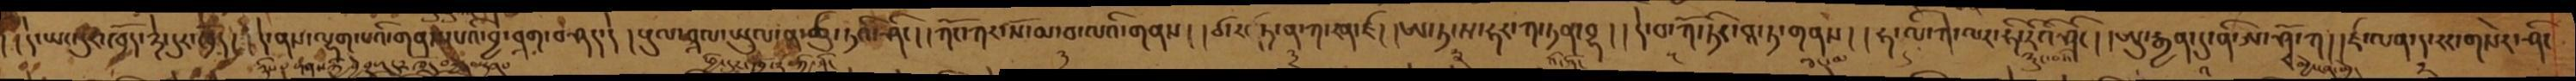།དེ་ཡང་དུར་ཁྲོད་ཉེ་དུར་ཁྲོད། །དེ་ནས་ལྷག་པའི་གནས་པའི་བྱ་ནག་བཤད་དེ། །རྡུལ་བྲལ་ཡུལ་ན་ཚུ་ཏའི་ཤིང། །ཀོང་ཀར་སོ་མ་བ་ལའི་གནས། །ཙ་ར་ཏུ་ན་ཀ་རན་ཛ། །ཨ་ཏ་ས་ཧར་ཀ་ཏ་བྷ། །དེ་བ་ཀོ་ཏིར་བཱ་ཏ་གནས། །ཧ་ལི་ཀེ་ལར་ཧི་རིའི་ཤིང། །ཨུ་རྒྱན་དུ་ནི་ཨ་ཤྭོ་ཀ། །ཛ་ལན་ད་རར་གསེར་ཤིང་
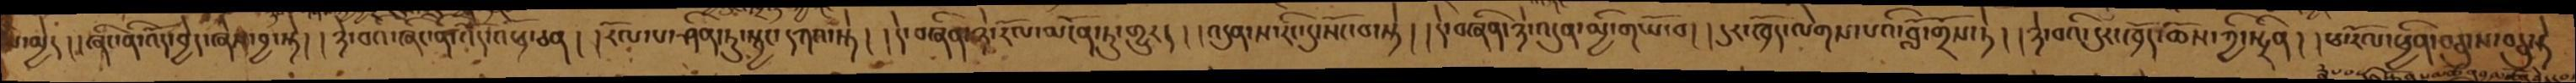པ་མྱེད། །ཞིང་ནི་འོད་བྱེད་ཞེས་བྱ་སྟེ། །ཉེ་བའི་ཞིང་ནི་འོད་འཕྲོ་ཅན། །རོལ་པ་ཤིན་ཏུ་སྦྱང་དཀའ་སྟེ། །དེ་བཞིན་ཉེ་རོལ་མངོན་ཏུ་གྱུར། །འདུན་ས་རིང་དུ་སོང་བ་སྟེ། །དེ་བཞིན་ཉེ་འདུན་མྱི་གཡོ་བ། །དུར་ཁྲོད་ལེགས་པའི་བློ་གྲོས་ཏེ། །ཉེ་བའི་དུར་ཁྲོད་ཆོས་ཀྱི་སྤྲིན། །ཕ་རོལ་ཕྱིན་བཅུ་ས་བཅུ་ཏེ
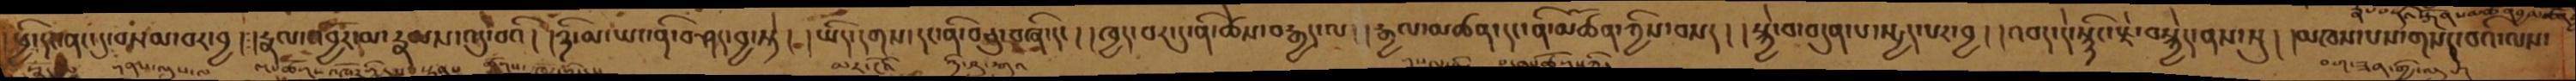ཕྱི་དང་ནང་དུ་བསམ་བར་བྱ། །རྣལ་འབྱོར་མ་རྣམས་འདུ་བའི། །ཉི་མ་ཡང་ནི་བཤད་བྱ་སྟེ། །ཡིད་དགས་དང་ནི་བཅུ་བཞི་དང། །ཁྱད་པར་དུ་ནི་ཚེས་བརྒྱད་ལ། །རྒྱལ་མཚན་དང་ནི་མཚོན་ཀྱིས་བསད། །སྐྱེ་བ་བདུན་པ་སྤྱད་པར་བྱ། །འབད་དེ་སྙིང་རྗེ་བསྐྱེད་ནས་སུ། །མཁས་པས་གསང་བའི་ལས་
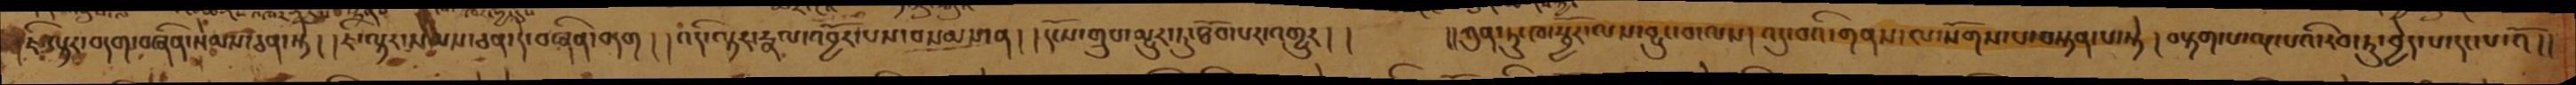།ཇི་ལྟར་བདག་བཞིན་སེམས་ཅན་སྟེ། །ཇི་ལྟར་སེམས་ཅན་དེ་བཞིན་བདག། །འདི་ལྟར་རྣལ་འབྱོར་པས་བསམས་ན། །དངོས་གྲུབ་མྱུར་ཏུ་ཐོབ་པར་འགྱུར།།   །།ཀུན་ཏུ་ཁ་སྦྱོར་ལས་བྱུང་བ་ལས། འདུ་བའི་གནས་ལ་སོགས་པ་བསྟན་པ་སྟེ། བརྟག་པ་ལྔ་པའི་རབ་ཏུ་བྱེད་པ་དང་པ་འོ།།
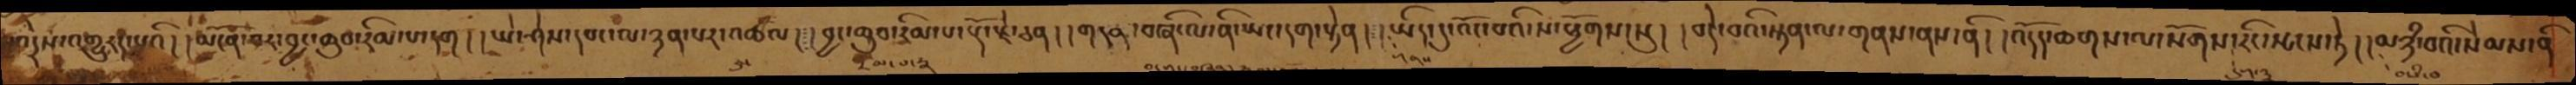་འདྲེས་འགྱུརད་པའི། །མངོན་པར་བྱང་ཆུབ་རིམ་པ་དག། །ཡེ་ཤེས་དབང་ལ་ཉན་པར་འཚལ། །བྱང་ཆུབ་རིམ་པ་རྡོ་རྗེ་ཅན། །གདན་བཞི་ལ་ནི་ཡང་དག་སྟེན། །ཡིད་དུ་འོང་བའི་ས་ཕྱོགས་སུ། །བདེ་བའི་སྟན་ལ་གནས་ནས་ནི། །འདོད་ཆགས་ལ་སོགས་རིང་སྤངས་ཏེ། །མཉཾ་བའི་སེམས་ནི
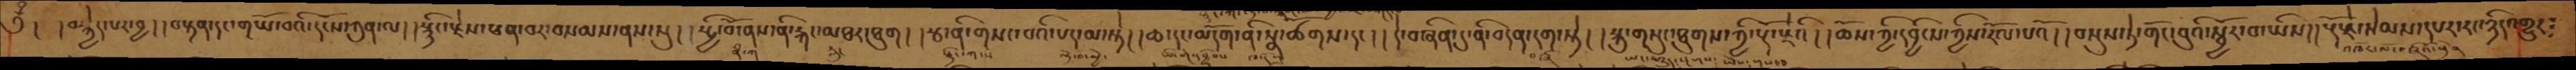༄ྃ།  །བསྐྱེད་པར་བྱ། །བསྟན་དང་གཡོ་བའི་དངོས་ཀུན་ལ། །སྙིང་རྗེས་ཕན་བར་བསམས་ནས་སུ། །སྤྱི་བོ་ནས་ནི་རྐང་མཐར་ཐུག། །རྩ་ནི་གསང་བའི་པད་མ་སྟེ། །ཆ་དང་མདོག་ནི་སྣ་ཚོགས་དང། །དེ་བཞིན་དུ་ནི་བདེན་དག་སྟེ། །སྐུ་གསུང་ཐུགས་ཀྱི་རྡོ་རྗེའི། །ཆོས་ཀྱི་དབྱིངས་ཀྱིས་རོལ་པའོ། །བསྡུས་ཏེ་གོང་བུའི་སྦྱོར་བ་ཡིས། །རྡོ་རྗེ་སེམས་དཔར་རང་ཉིད་འགྱུར༴
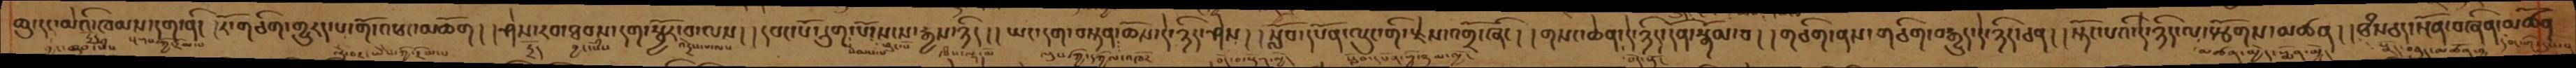ཆུ་དང་མེའི་ཁམས་དག་ནི། །རོ་གཅིག་གྱུརད་པ་གོ་འཕང་མཆོག། །ཤེས་རབ་ཐབས་དག་སྦྱོར་བ་ལས། །དབང་པོ་དྲུག་པོ་སངས་རྒྱས་ཉིད། །ཡང་དག་བསྟན་ཆོས་དེ་ཉིད་ཤེས། །སློབ་དཔོན་ལུང་གི་རྗེས་འགྲོ་ཞིང། །གསང་ཆེན་དེ་ཉིད་དོན་སྒོམ་བ། །གཅིག་ནས་གཅིག་བརྒྱུད་དེ་ཉིད་ཅན། །སྟོང་པའི་དེ་ཉིད་ལ་སྩོགས་མཚན། །ཐཾསཅད་སྔོན་བཞིན་མཚོན
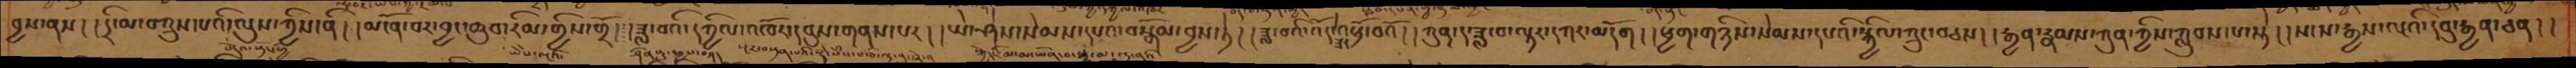བྱས་ནས། །དྲི་མ་བཀྲུས་པའི་ལུས་ཀྱིས་ནི། །མངོན་བར་བྱང་ཆུབ་རིམ་གྱིས་གྲོ། །ཟླ་བའི་དཀྱིལ་འཁོར་དབུས་གནས་པར། །ཡེ་ཤེས་སེམས་དཔའ་བསྒོམ་བྱས་ཏེ། །ཟླ་བའི་འོད་ཟེར་འཕྲོ་བའོ། །ཀུན་ད་ཟླ་བ་ལྟར་དཀར་མདོག། །ཕྱག་གཉིས་སེམས་དཔའི་སྐྱིལ་ཀྲུང་བཅས། །རྒྱན་རྣམས་ཀུན་ཀྱིས་ཀླུབས་པ་སྟེ། །སངས་རྒྱས་ལྔའི་དབུ་རྒྱན་ཅན། །
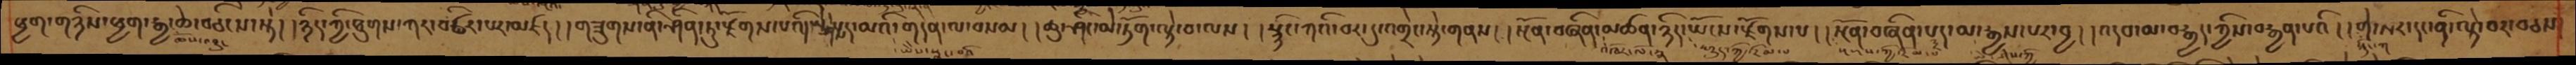ཕྱག་གཉིས་ཕྱག་རྒྱ་ཆེ་བཅིངས་སྟེ། །ཉིད་ཀྱི་ཐུགས་ཀར་བཙིར་པར་མཛད། །གཟུགས་ནི་ཤིན་ཏུ་རྫོགས་པའི། །ཡེ་ཤེས་པད་མའི་གདན་ལ་བསམ། །ཆུ་ཤིང་མེ་ཏོག་ལྟེ་བ་ལས། །སྙིང་ཀའི་བར་དུ་འགྲེང་སྟེ་གནས། །སྔོན་བཞིན་མཚན་ཉིད་ཡོངས་རྫོགས་པ། །སྔོན་བཞིན་པད་མ་རྒྱས་པར་བྱ། །འདབ་མ་བརྒྱད་ཀྱིས་བརྒྱན་པའི། །གེ་སར་དང་ནི་ལྟེ་བར་བཅས
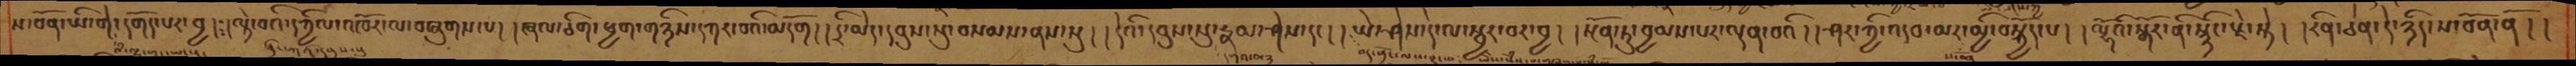ས་བོན་ཡི་གེ་དགོད་པར་བྱ། ཿ  །ལྟེ་བའི་དཀྱིལ་འཁོར་ལ་བཞུགས་པ། །ཞལ་ཅིག་ཕྱག་གཉིས་དཀར་བའི་མདོག། །དྲི་མེད་དབུས་སུ་བསམས་ནས་སུ། །དེའི་དབུས་སུ་རྣམ་ཤེས་དང། །ཡེ་ཤེས་དེ་ལ་སྦྱར་བར་བྱ། །སྔོན་ཏུ་བྱམས་པར་ལྡན་བའི། །ཤར་ཀྱི་འདབ་མར་མྱི་བསྐྱོད་པ། །ལྷོའི་སྒོར་ནི་སྙིང་རྗེ་སྟེ། །རིན་ཅེན་དེ་ཉིད་ས་བོན་ནོ། །
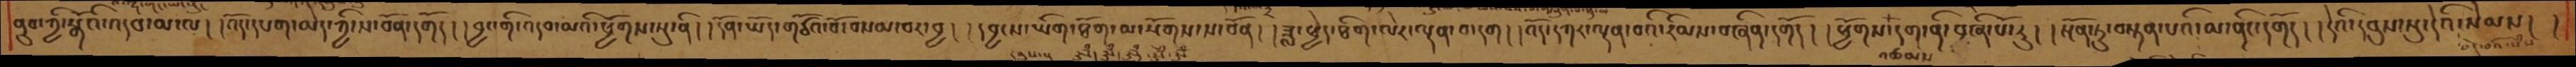ནུབ་ཀྱི་སྒོའི་འདབ་མ་ལ། །འོད་དཔག་མེད་ཀྱི་ས་བོན་དགོད། །བྱང་གི་འདབ་མའི་ཕྱོགས་སུ་ནི། །དོན་ཡོན་གཙོའ་བོ་བསམ་བར་བྱ། །དབྱངས་ཡིག་ཐོག་མ་སོགས་ས་བོན། །ཟླ་ཕྱེད་ཐིག་ལེར་ལྡན་བ་དག། །འོད་དཀར་ལྡན་བའི་རིམས་བཞིན་དགོད། །ཕྱོགས་འཚམས་དག་ནི་བཞི་པོ་རུ། །སྔོན་ཏུ་བསྟན་པའི་མ་ནིང་དགོད། །དེའི་དབུས་སུ་དེའི་སེམས། །
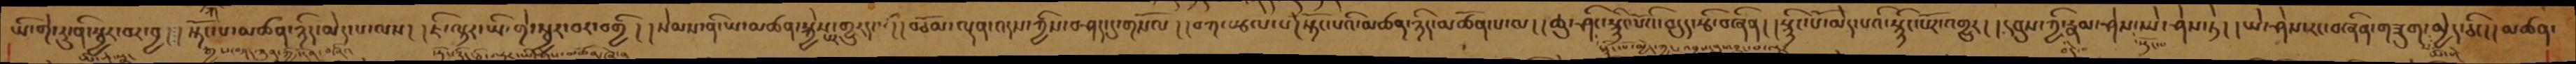ཡི་གེ་རུ་ནི་སྦྱར་བར་བྱ། །སྟོང་པ་མཚན་ཉིད་མེད་པ་ལས། །ཇི་ལྟར་ཡི་གེ་སྦྱར་བར་བགྱི། །སེམས་ནི་ཡ་མཚན་སྐྱེས་པར་གྱུརད། །བཅོམ་ལྡན་འདས་ཀྱིས་བཤད་དུ་གསོལ། །བཀ་སྩལ་པ། སྟོང་པའི་མཚན་ཉིད་མཚོན་པ་ལ། །ཆུ་ཤིང་སྙིང་པོའི་བདུད་རྩི་བཞིན། །སྙིང་པོ་མེད་པའི་སྙིང་པོར་འགྱུར། །དབུས་ཀྱི་རྣམ་ཤེས་ཡེ་ཤེས་ཏེ། །ཡེ་ཤེས་རང་བཞིན་གཟུགས་མྱེད་ཅིང། །མཚན
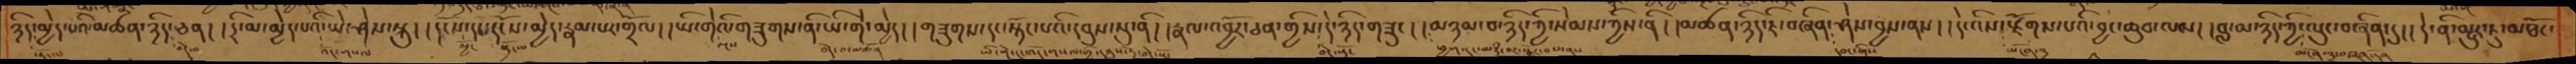ཉིད་མྱེད་པའི་མཚན་ཉིད་ཅན། །དྲི་མ་མྱེད་པའི་ཡེ་ཤེས་སྐུ། །དངོས་དང་དངོས་མྱེད་རྣམ་པར་གྲོལ། །ཡི་གེའི་གཟུགས་ནི་ཡི་གེ་མྱེད། །གཟུགས་དང་སྟོང་པའི་དབུས་སུ་ནི། །རྣལ་འབྱོར་ཅན་གྱིས་དེ་ཉིད་གཟུང། །མཉམ་བ་ཉིད་ཀྱི་སེམས་ཀྱིས་ནི། །མཚན་ཉིད་ཇི་བཞིན་ཤེས་བྱས་ནས། །དེ་འིས་རྫོགས་པའི་བྱང་ཆུབ་ལམ། །བླ་མ་ཉིད་ཀྱི་ལུང་བཞིན་དུ། །དེ་ནི་མྱུར་ཏུ་མཐོང་
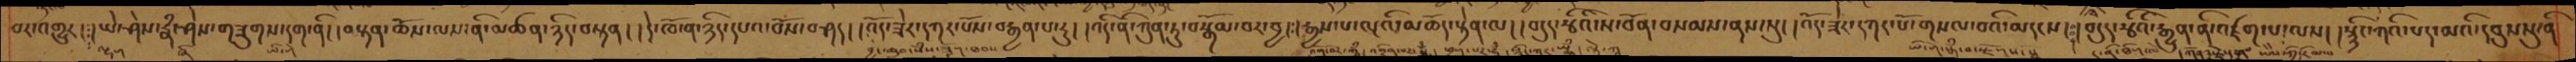པར་འགྱུར། །ཡེ་ཤེས་རྣཾ་ཤེས་གཟུགས་དག་ནི། །བསྟན་ཆོས་ལས་ནི་མཚན་ཉིད་བསྟན། །དེ་ཁོ་ན་ཉིད་དཔའ་བོས་བཤད། །འོད་ཟེར་དཀར་པོས་བརྒྱན་པ་རུ། །འདི་ནི་ཀུན་ཏུ་བསྒོམ་བར་བྱ། །རྒྱས་པ་ལྔའི་མཆོད་རྟེན་ལ། །བདུད་རྩིའི་ས་བོན་བསམས་ནས་སུ། །འོད་ཟེར་དཀར་པོ་གསལ་བའི་མདངས། །བདུད་རྩིའི་རྒྱུན་ནི་འཛག་པ་ལས། །སྙིང་ཀའི་པད་མའི་དབུས་སུ་ནི
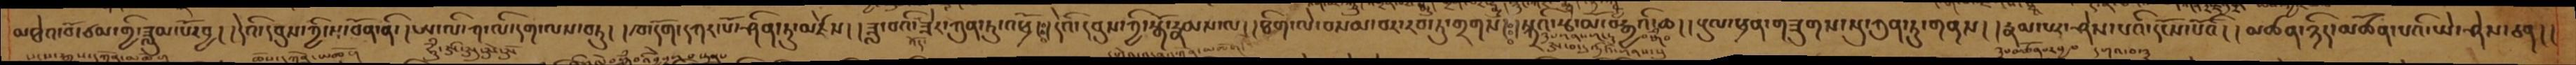མཐེའ་བོ་ཙམ་གྱི་ཟླུམ་པོར་བྱ། །དེའི་དབུས་ཀྱི་ས་བོན་ནི་ །ཨ་ལི་ཀ་ལི་དག་ལས་བཏུ། །ཁ་དོག་དཀར་པོ་ཤིན་ཏུ་མཛེས། །ཟླ་བའི་འོད་ཟེར་ཀུན་ཏུ་འཕྲོ། །དེའི་དབུས་ཀྱི་སྒོ་རྣམས་ལ། །ཐིག་ལེ་བསམ་པར་རབ་ཏུ་གྲགས། །སྐུའི་རྩེ་མོ་བརྒྱའི་ཆ། །རྡུལ་ཕྲན་གཟུགས་སུ་ཀུན་ཏུ་གནས། །རྣམ་པར་ཤེས་པའི་དངོས་པོའི། །མཚན་ཉིད་མཚོན་པའི་ཡེ་ཤེས་ཅན། །
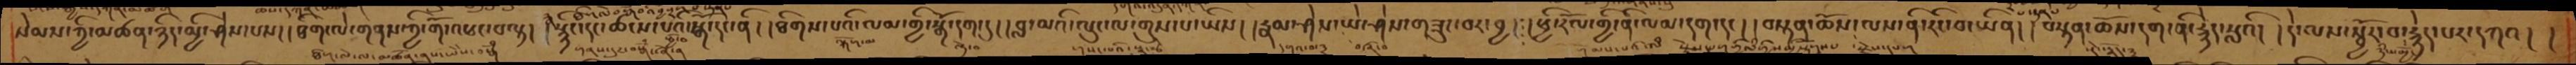སེམས་ཀྱི་མཚན་ཉིད་མྱི་ཤེས་པས། །ཐིག་ལེ་གནས་ཀྱི་གོ་འཕང་བལྟ། སྙིང་དང་ཚངས་པ་སྒོ་དང་ནི། །ཐིགས་པའི་ལམ་གྱི་སྒོ་དག་དུ། །བླ་མའི་ལུང་ལ་གུས་པ་ཡིས། །རྣམ་ཤེས་ཡེ་ཤེས་གཟུང་བར་བྱ། །ཕྱི་རོལ་གྱི་ནི་ལམ་དག་དང། །བསྟན་ཆོས་ལས་ནི་རིང་བ་ཡིན། །བསྟན་ཆོས་དག་ནི་རྙེད་སླའི། །དེ་ལས་སྦྱོར་བ་རྙེད་པར་དཀའ། །
